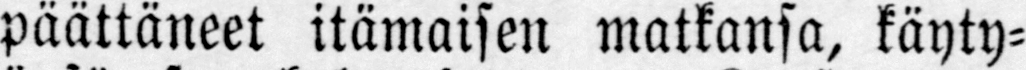päättäneet itämaisen matkansa, käyty-
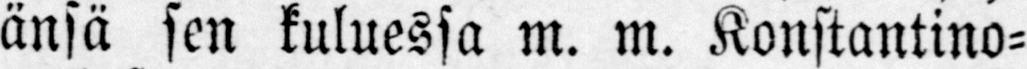änsä sen kuluessa m. m. Konstantino-
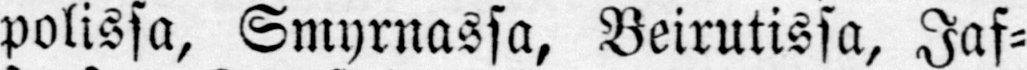polissa, Smyrnassa, Beirutissa, Jas-
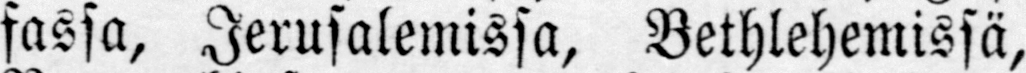sassa, Jerusalemissa, Bethlehemissä,
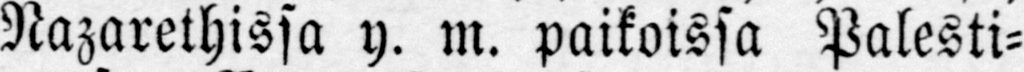Nazarethissa y. m. paikoissa Palesti-
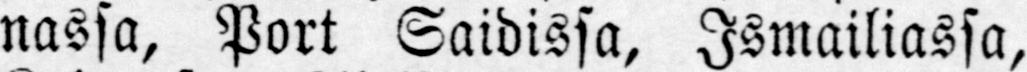nassa, Port Saidissa, Ismailiassa,
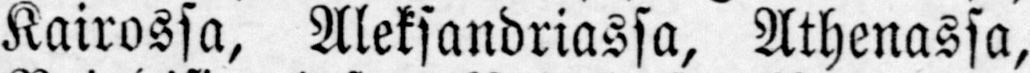Kairossa, Aleksandriassa, Athenassa,
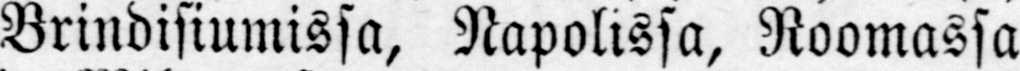Brindisiumissa, Napolissa, Roomassa
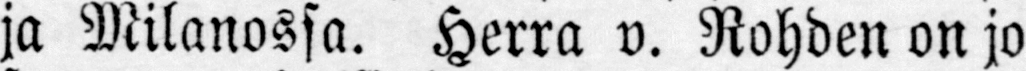ja Milanossa. Herra v. Rohden on jo
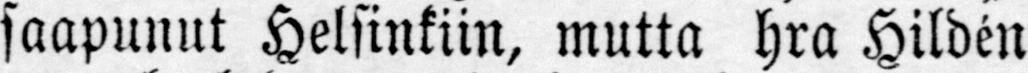saapunut Helsinkiin, mutta hra Hildèn
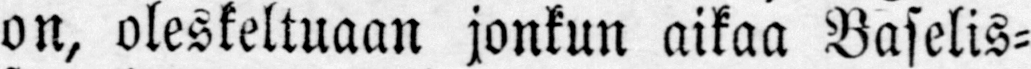on, oleskeltuaan jonkun aikaa Baselis-
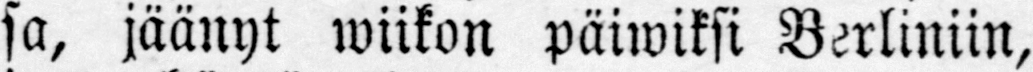sa, jäänyt wiikon päiwiksi Berliinin,
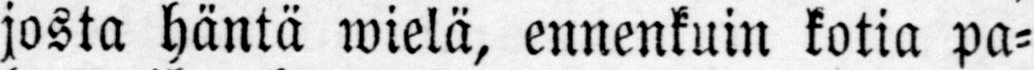josta häntä wielä, ennenkuin kotia pa-
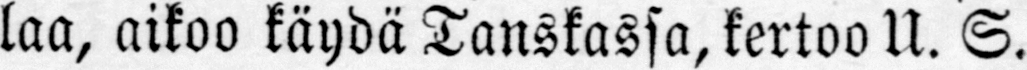laa, aikoo käydä Tanskassa, kertoo U. S.
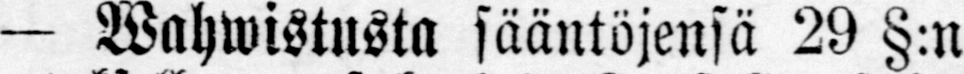— Wahwistusta sääntöjensä 29 §:n
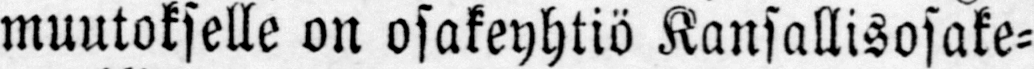muutokselle on osakeyhtiö Kansallisosake-
